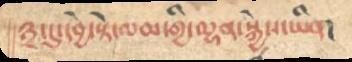༣་དུ་དབྱེ་སྟེ་ལམ་གྱི་ལྷན་སྐྱེས་ཡིན།
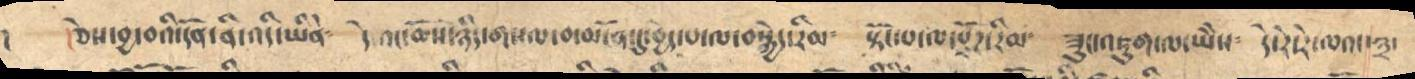། །ཅེས་བྱ་བའི་དོན་ནི་འདི་ཡིནེ༴ དེའང་ཆོས་ཉིད་གསལ་བ་མངོན་དུ་བྱེད་པ་ལ་བསྐྱེད་རིམ༴ སྟོང་པ་ལ་སྫོཌ་རིམ༴ ཟུང་འཇུག་ལ་ཡཻས༴ དེ་རེ་རེ་ལའང་༣་
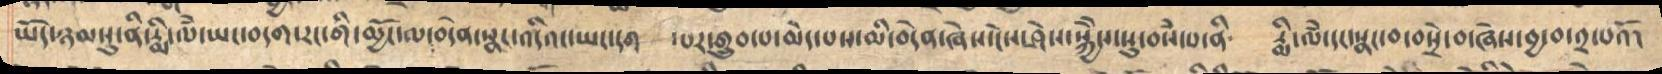ཡོད་ཉམསུ་ནི་རྨི་ལཾ་ཡང་བདག་རང་གི་མྱོང་ལ་བདེན་སྣང་འདིའང་ཡང་དག ་པར་གྲུབ་པ་མེད་པས་མི་བདེན་ཞེས་ངེས་ཤེས་སྐྱཻས་སུ་བསཾ་པ་ནི༴ རྨི་ལཾ་དང་སྣང་བ་བསྲེ་བ་ཞེས་བྱ་བ་༢་པའོ།
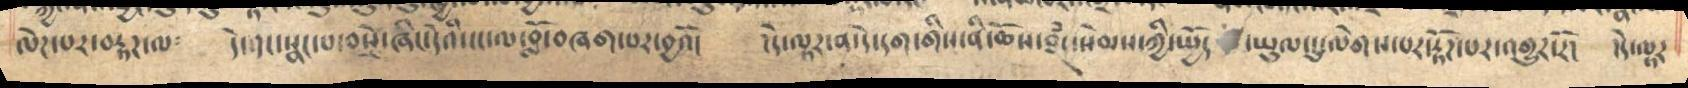ལེཌ་པར་བརྟཌ་ལ༴ དེ་དང་སྣང་པ་བསྲེ་ཞིང་དེའི་ངང་ལ་བློ་བཞག་པར་བྱའོ། །དེ་ལྟར་ན་དེ་དག་གིས་ནི་ཆོས་ཐཾད་སེམས་ཀྱི་སྤྱོད ་ཡུལ་དུ་ལེགས་པར་རྟོཌ་པར་འགྱུར་རོ། །དེ་ལྟར་
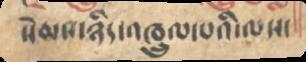སེམས་ཉིད་འཁྲུལ་པའི་ལས་
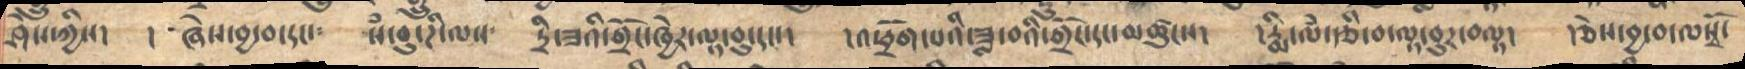ཤེས་ཀྱིས།  །ཞེས་བྱ་བ་དང་༴  སྃ་བུ་ཌི་ལས༴  དྲི་ཟའི་གྲོང་ཁྱེར་ལྟ་བུ་དང།   །འཕྲོག་པའི་ཟླ་བའི་གྲོཌ་དང་མཚུངས།  །རྨི་ལྃ་རྩི་བ་ལྟ་བུར་བལྟ།  ཅེས་བྱ་བ་ལསྭོ་
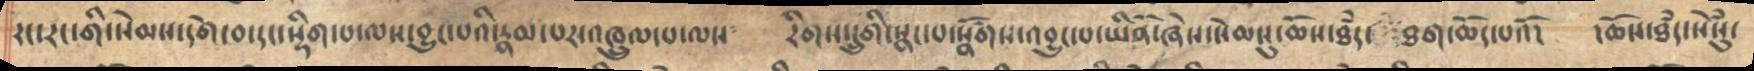རང་རང་གི་སེམསདགེ་བ་དང་སྡིག་པ་ལས་བྱུང་པའི་རྣམ་པར་འཁྲུལ་པ་ལས༴  རིགས་དྲུགི་སྣང་པ་སྣོཚགས་འབྱུང་པ་ཡིནོ་ཞེས་སེམསུ་ཆོས་ཐཾད་ཐག་ཆོད་པའོ།།    །ཆོས་ཐཾད་སེྃསུ་
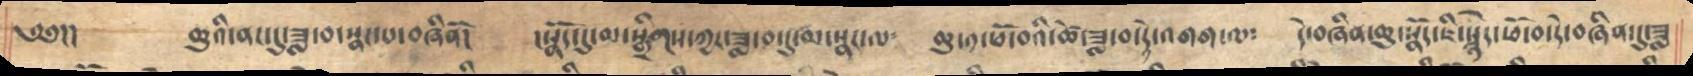༄༅།།    ཆུའི་ནང་དུ་ཟླ་བ་སྣང་པ་བཞིནོ།  །སྣོད་དུ་མ་སྒྲིགས་ཀྱང་ཟླ་བ་དུ་སྣང་ལ༴  ཆུ་༡་ཕོ་བའི་ཚེ་ཟླ་བ་དེ་འགག་ལ༴  དེ་བཞིན་དུ་ཆུ་སྣོད་ཇི་སྙེད་ཕོ་དེ་བཞིན་དུ་ཟླ
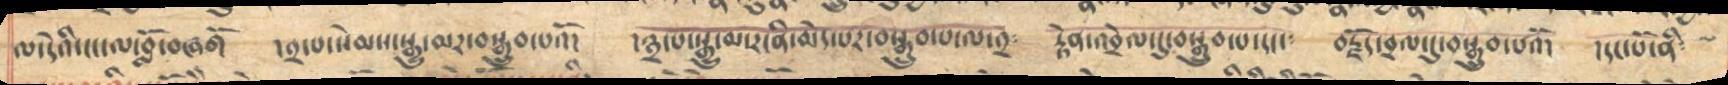ལ་དེའི་ངང་ལ་བློ་བཞགོ  །༢་པ་སེམས་སྒྱུ་མར་བསྒྲུབ་པའོ།   །༣་པ་སྒྱུ་མ་རངིན་མེད་པར་བསྒྲུབ་པ་ལ་༢༴   རྟེན་འབྲེལ་དུ་བསྒྲུབ་པ་དང༴  བརྗོད་བྲལ་དུ་བསྒྲུབ་པའོ།  །དང་པོ་ནི༴
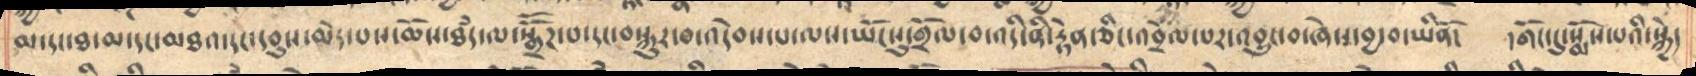མ་དང་ཐ་མ་དང་མཐའ་དང་དབུས་མེད་པས་ཆོས་ཐཾད་ལ་སྒྲཽཌ་པ་དང་བསྐྱུར་བ་འདེབས་པ་ལས་ཡོངསུ་གྲོལ་བ་འདི་ནི་རྟེན་ཅིང་འབྲེལ་པར་འབྱུང་བ་ཞེས་བྱ་བ་ཡིནོ། །གོང་དུ་སྨོས་པའི་སྐྱེ་
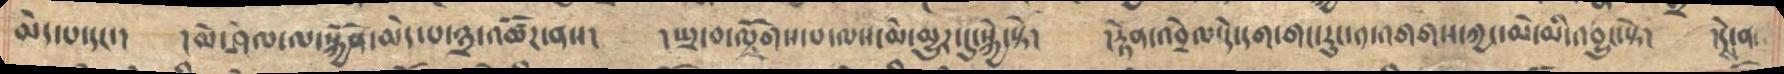མེད་པ་དང་། །མེ་ཤེལ་ལ་སྐྱོན་མེད་པ་༣་འཚོཌ་ནས། སྤྲ་བ་ལོགས་པ་ལས་མེ་མྱུར་དུ་སྐྱེ་སྟེ། །རྟེན་འབྲེལ་དེ་དག་གང་རུང་༡་འགགས་ཀྱང་མེ་མི་འབྱུང་སྟེ། །དེ་ན་
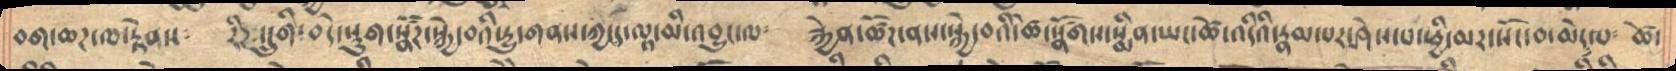བག་ཆཌ་ལ་རྟེནས༴  རིཌ་དྲུགི་བདེ་སྡུག་སྣཚོཌ་སྐྱེ་བའི་རྱུ་གནས་ཀྱང་ད་ལྟ་མི་འབྱུང་ལ༴  རྐྱེན་ཚོཌ་ནས་སྐྱེ་བའི་ཚེ་སྣཚོགས་སྨིན་ཡང་ཚེ་འདིའི་རྣམ་པར་ཤེས་པ་ཕྱི་མར་སོང་བ་མེད་པ༴  ཚེ་
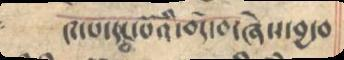༩་པ་དང་པོའི་བདེ་བ་ཞེས་བྱ་བ
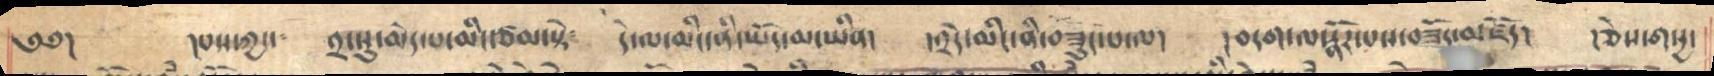༄༅།      དཔས་ཀྱང་༴   ༢་སུ་མེད་པ་མིང་ཙམ་སྟེ༴    དེ་ལ་མིང་ནི་ཡིད་མ་ཡིན།  །༢དེ་མིང་ནི་བཟུང་པ་ལ།  །བདག་ལ་རྣོར་པས་བཟོར་མཛོད།  །ཅེས་གསྱ་
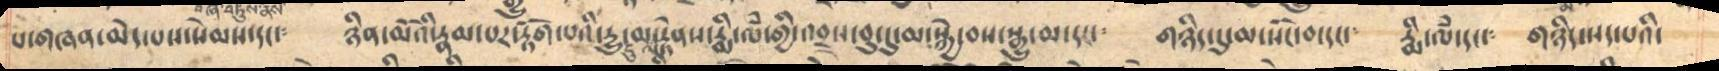པ་གཞན་མེད་པས་སེམས་དང་༴  ཉིན་མོའི་རྣམ་པར་རྟོག་པའི་དྱུ་དུ་མ་ལ་རྟེནས་རྨི་ལཾ་གྱི་འབྲས་བུ་དུ་མ་སྐྱེ་བས་སྒྱུ་མ་དང་༴  གཉིད་དུ་མ་སོང་བ་དང་༴  རྨི་ལཾ་དང་༴   གཉིད་སད་པའི་
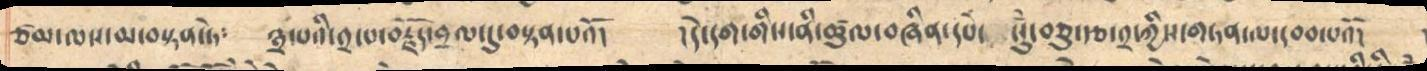ཙམ་ལས་མ་བསྟན་ཏེ༴   ༣་པའི་༢་པ་བརྗོད་བྲལ་དུ་བསྟན་པའོ།  །དེ་དག་གིས་ཚུལ་བཞིན་དཔེ།  སུཾ་བཅུ་རྩ་༢་ཀྱིས་གཏན་ལ་དབབ་པའོ།
